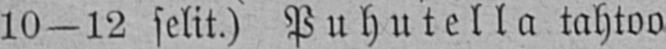10-12 selit.) Puhutella tahtoo
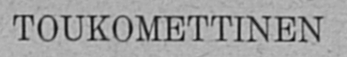TOUKOMETTINEN
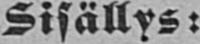Sisällys:
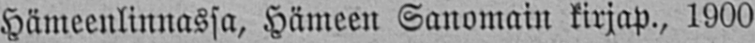Hämeenlinnassa, Hämeen Sanomain kirjap., 1900.
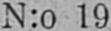N:o 19
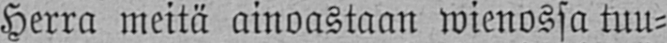Herra meitä ainoastaan wienossa tuu-
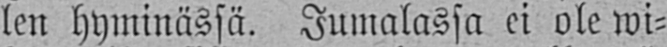len hyminässä. Jumalassa ei ole wi-
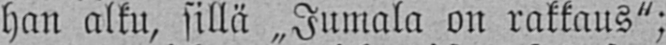hal alku, sillä ˶Jumala on rakkaus";
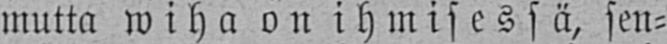mutta wi ha on ihmisessä, sen-
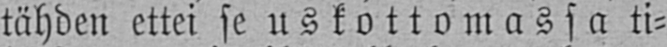tähden ettei se uskottomassa ti-
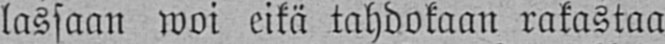lassaan woi eikä tahdokaan rakastaa
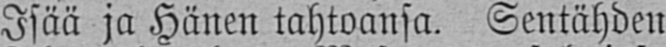Isää ja Hänen tahtoansa. Sentähden
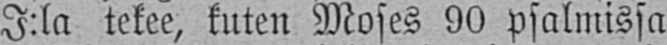J:la tekee, kuten Moses 90 psalmissa
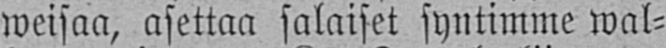weisaa, asettaa salaiset syntimme wal-
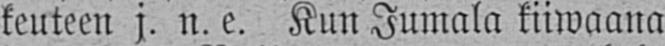keuteen j. n. e. Kun Jumala kiiwaana
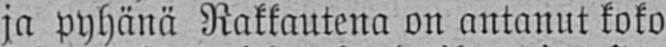ja pyhänä Rakkautena on antanut koko
